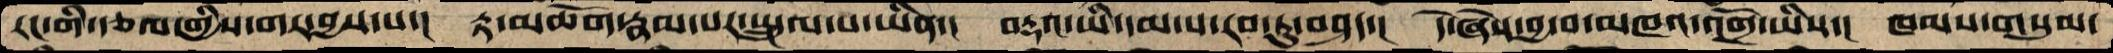རང་གི་རྩལ་གྱིས་གར་བྱས་པ་།  རྟ་མཆོག་རྣམ་པར་སྤྲུལ་པ་ཡིན་།  བརྡའ་ཡི་དམ་པ་རབ་ཏུ་བཤད་།  དེ་བཞིན་བྱ་བ་མཁའ་འགྲོ་ཡིས་།  ཁམས་གསུམ་
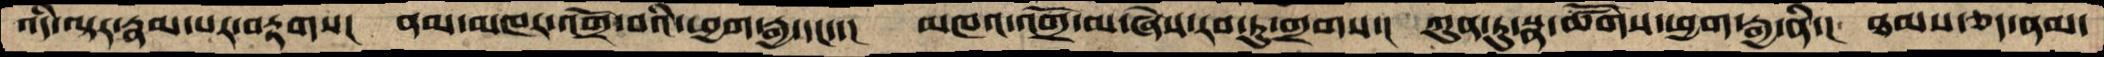འདི་ལྟར་རྣམ་པར་བརྟགས།  ནམ་མཁར་འགྲོ་བའི་ཕྱག་རྒྱ་དང་་།  མཁའ་འགྲོ་མ་ཞེས་རབ་ཏུ་གྲགས་།  ཀུན་ཏུ་སྣ་ཚོགས་ཕྱག་རྒྱ་ནི་།  ཐམས་ཅད་ནམ
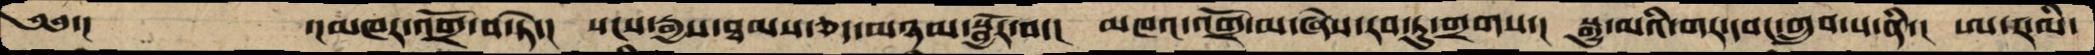༄༅་།       ་།མཁར་འགྲོ་བ་ཏེ་།  སངས་རྒྱས་ཐམས་ཅད་མཉམ་སྦྱོར་བ་།  མཁའ་འགྲོ་མ་ཞེས་རབ་ཏུ་གྲགས་།  སྒྱུ་མའིགར་དབང་གྲུབ་པ་ནི་།  ཨ་ར་ལི
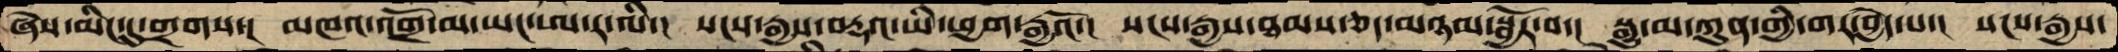ཞེས་མིང་དུ་གྲགས་།  མཁའ་འགྲོ་མ་ཡང་ཨ་ར་ལི་།  སངས་རྒྱས་བརྡའ་ཡི་ཕྱག་རྒྱའོ་།  སངས་རྒྱས་ཐམས་ཅད་མཉམ་སྦྱོར་བ་།  སྒྱུ་མ་ཀུན་གྱི་གར་བྱེད་པ་།  སངས་རྒྱས་
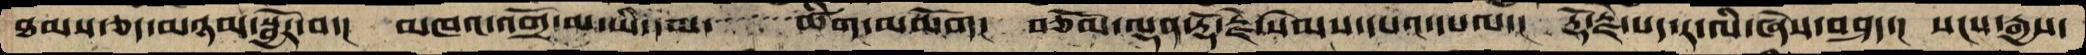ཐམས་ཅད་མཉམསྦྱོར་བ་།  མཁའ་འགྲོ་མ་ཡི་དམ་      ཚིག་མཆོག།  བཅོམ་ལྡན་རྡོ་རྗེ་སེམས་དཔའ་དཔལ་།  རྡོ་རྗེ་སད་ར་ལི་ཞེས་བཤད་།  སངས་རྒྱས་
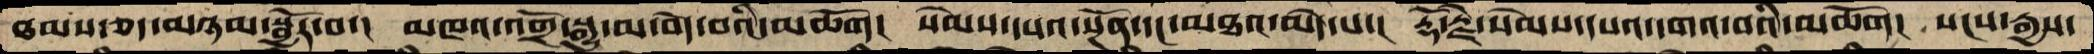ཐམས་ཅད་མཉམ་སྦྱོར་བ་།  མཁའ་འགྲོ་སྒྱུ་མ་བདེ་བའི་མཆོག།  སེམས་དཔའ་སྔོན་དང་མཐའ་མེད་པ་།  རྡོ་རྗེ་སེམས་དཔའ་དགའ་བའི་མཆོག།  སངས་རྒྱས་
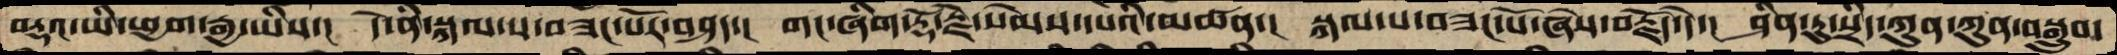བརྡའ་ཡི་ཕྱག་རྒྱ་ཡིས་།  དེ་ནི་སྐལ་པ་བཟང་པོར་བཤད་།  གང་ཞིག་རྡོ་རྗེ་སེམས་དཔའི་མཚན་།  སྐལ་པ་བཟང་པོ་ཞེས་བརྗོད་དེ་།  ཤིན་ཏུ་སྲིད་ཀུན་ཀུན་བསྒྲུབ་
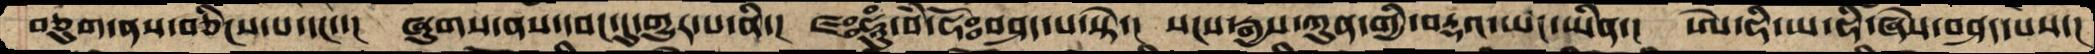བཅུག་ནས་བཅིངས་པ་དང་་།  ཞུགས་ནས་དབང་དུ་གྱུར་པ་ནི་།  ཛཿཧཱུཾ་བཾ་ཧོཿབཤད་པ་སྟེ་།  སངས་རྒྱས་ཀུན་གྱི་བརྡའ་ཡང་ཡིན་།  ཨེ་ཧི་ཨ་ཧི་ཞེས་བཤད་པས་།
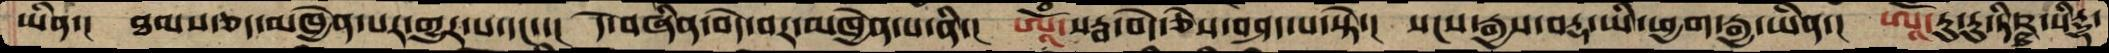ཡིན་།  ཐམས་ཅད་མཁྱེན་པར་གྱུར་པ་དང་་།  དེ་བཞིན་བདེ་བར་མཁྱེན་པ་ནི་།  ཨཱོཾ་སརྦ་བདེ་ཅེས་བཤད་པ་སྟེ་།  སངས་རྒྱས་བརྡ་ཡི་ཕྱག་རྒྱ་ཡིན་།  ཨཱོཾ་རུ་རུ་ཏིཥྛ་སིདྡྷ་
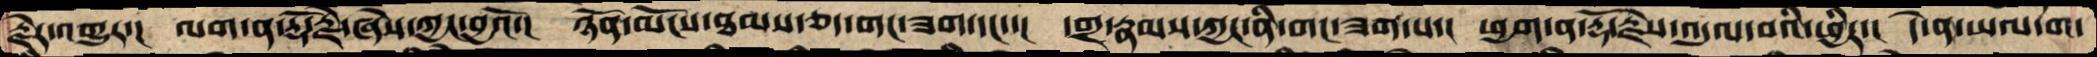རྗེར་འགྱུར་།  ལག་ན་རྡོ་རྗེ་ཞེས་ཀྱང་བྱའོ་།  ཉོན་མོངས་ཐམས་ཅད་གང་ཟག་དང་་།  དགྲ་རྣམས་ཀྱང་ནི་གང་ཟག་པ་།  ཕྱག་ན་རྡོ་རྗེས་འདུལ་བའི་ཕྱིར་།  དེ་ན་ཡལ་ག་
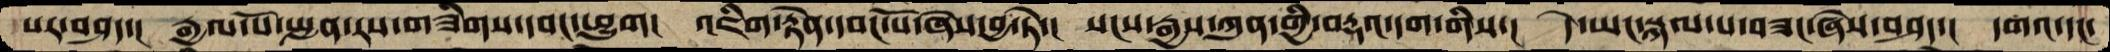པར་བཤད་།  རྒྱལ་པོ་སྤྱན་རས་གཟིགས་དབང་ཕྱུག་།  འཇིག་་རྟེན་དབང་པོ་ཞེས་བྱ་ཏེ་།  སངས་རྒྱས་ཀུན་གྱི་བརྡའ་དག་གིས་།  དེ་ཡང་སྐལ་པ་བཟང་ཞེས་བཤད་།  དགའ་དང་
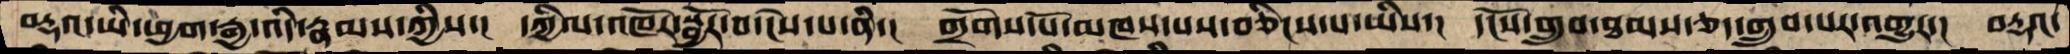བརྡའ་ཡི་ཕྱག་རྒྱ་འདི་རྣམས་ཀྱིས་།  དཀྱིལ་འཁོར་སྦྱོར་བ་ངེས་པ་ནི་།  གྲོགས་པོ་མཁས་པས་བཅིངས་པ་ཡིས་།  དངོས་གྲུབ་ཐམས་ཅད་གྲུབ་པར་འགྱུར་།  བརྡའ་
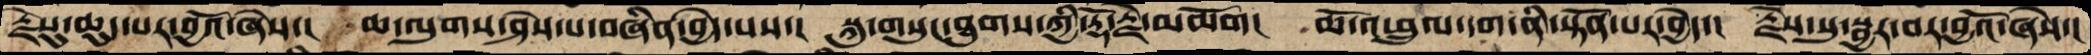རྗེསུ་ཆུད་པར་བྱའོ་ཞེས་།  ཆ་ལུགས་ཤེས་པ་བཞིན་བྱེད་པས་།  སྐུ་གསུང་ཐུགས་ཀྱི་རྡོ་རྗེ་མཆོག།  ཆོ་འཕྲུལ་དག་ནི་སྟོན་པར་བྱེད་། རྗེས་སུ་སྦྱར་བར་བྱའོ་ཞེས་།
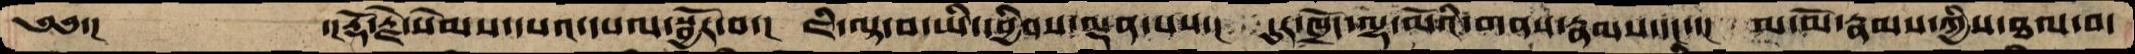༄༅་།      ་།རྡོ་རྗེ་སེམས་དཔའ་དཔལ་སྦྱོར་བ་།  ཇི་ལྟ་བ་ཡི་དབྱིབས་ལྡན་པས་།  དུར་ཁྲོད་ལྷ་མོའི་གནས་རྣམས་དང་་།  མ་མོ་རྣམས་ཀྱིས་ཐལ་བ་
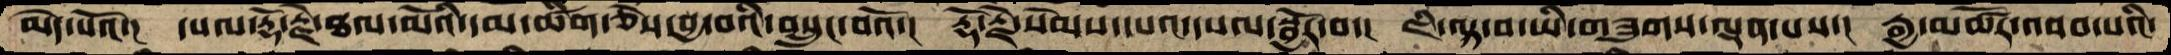མེད་པའོ་།  དཔལ་རྡོ་རྗེ་ཐལ་མོའི་དམ་ཚིག་ཅེས་བྱ་བའི་བསྲུང་བའོ་།  རྡོ་རྗེ་སེམས་དཔའ་དཔལ་སྦྱོར་བ་།  ཇི་ལྟ་བ་ཡི་གཟུགས་ལྡན་པས་།  རྒྱ་མཚོར་འབབ་པའི་
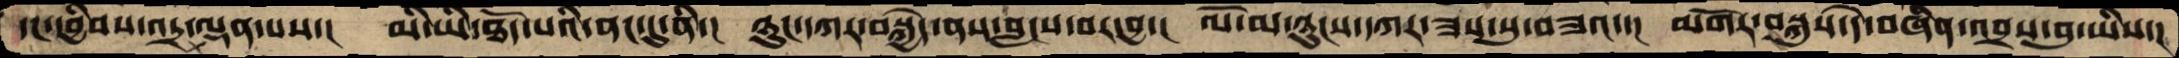དང་དབྱིབས་འདྲ་ལྡན་པས་།  མི་ཡི་ཐོད་པའི་ནང་དུ་ནི་།  ཉུངས་དཀར་བསྐྱེད་ནས་བླངས་བར་བྱ་།  ལོ་མ་ཉུངས་དཀར་ཟས་སུ་བཟའ་།  མགོར་བསྐུས་དེ་བཞིན་འབྲས་བུ་ཡིས་།
